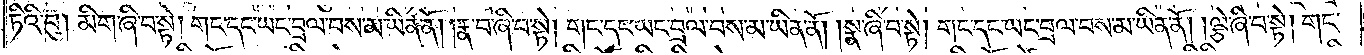ཏིའི་བུ། མིག་ཞི་བ་སྟེ། གང་དང་ཡང་བྲལ་བས་མ་ཡིན་ནོ། །རྣ་བ་ཞི་བ་སྟེ། གང་དང་ཡང་བྲལ་བས་མ་ཡིན་ནོ། །སྣ་ཞི་བ་སྟེ། གང་དང་ཡང་བྲལ་བས་མ་ཡིན་ནོ། །ལྕེ་ཞི་བ་སྟེ། གང་
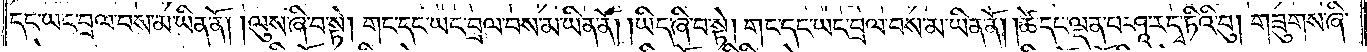དང་ཡང་བྲལ་བས་མ་ཡིན་ནོ། །ལུས་ཞི་བ་སྟེ། གང་དང་ཡང་བྲལ་བས་མ་ཡིན་ནོ། །ཡིད་ཞི་བ་སྟེ། གང་དང་ཡང་བྲལ་བས་མ་ཡིན་ནོ། །ཚེ་དང་ལྡན་པ་ཤཱ་ར་དྭ་ཏིའི་བུ། གཟུགས་ཞི་
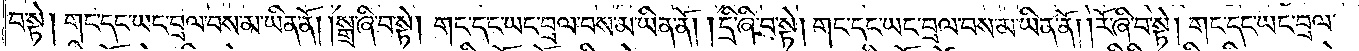བ་སྟེ། གང་དང་ཡང་བྲལ་བས་མ་ཡིན་ནོ། །སྒྲ་ཞི་བ་སྟེ། གང་དང་ཡང་བྲལ་བས་མ་ཡིན་ནོ། །དྲི་ཞི་བ་སྟེ། གང་དང་ཡང་བྲལ་བས་མ་ཡིན་ནོ། །རོ་ཞི་བ་སྟེ། གང་དང་ཡང་བྲལ་
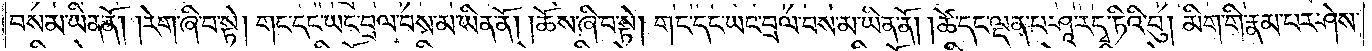བས་མ་ཡིན་ནོ། །རེག་ཞི་བ་སྟེ། གང་དང་ཡང་བྲལ་བས་མ་ཡིན་ནོ། །ཆོས་ཞི་བ་སྟེ། གང་དང་ཡང་བྲལ་བས་མ་ཡིན་ནོ། །ཚེ་དང་ལྡན་པ་ཤཱ་ར་དྭ་ཏིའི་བུ། མིག་གི་རྣམ་པར་ཤེས་
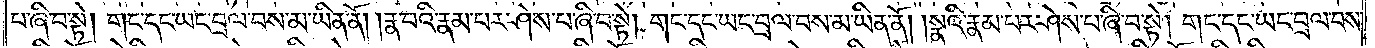པ་ཞི་བ་སྟེ། གང་དང་ཡང་བྲལ་བས་མ་ཡིན་ནོ། །རྣ་བའི་རྣམ་པར་ཤེས་པ་ཞི་བ་སྟེ། གང་དང་ཡང་བྲལ་བས་མ་ཡིན་ནོ། །སྣའི་རྣམ་པར་ཤེས་པ་ཞི་བ་སྟེ། གང་དང་ཡང་བྲལ་བས་
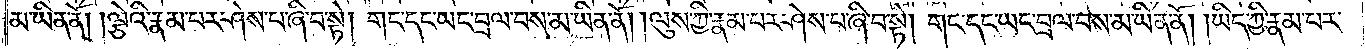མ་ཡིན་ནོ། །ལྕེའི་རྣམ་པར་ཤེས་པ་ཞི་བ་སྟེ། གང་དང་ཡང་བྲལ་བས་མ་ཡིན་ནོ། །ལུས་ཀྱི་རྣམ་པར་ཤེས་པ་ཞི་བ་སྟེ། གང་དང་ཡང་བྲལ་བས་མ་ཡིན་ནོ། །ཡིད་ཀྱི་རྣམ་པར་
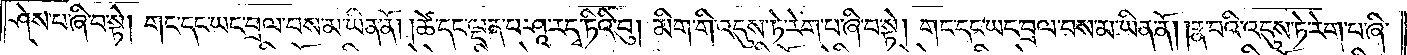ཤེས་པ་ཞི་བ་སྟེ། གང་དང་ཡང་བྲལ་བས་མ་ཡིན་ནོ། །ཚེ་དང་ལྡན་པ་ཤཱ་ར་དྭ་ཏིའི་བུ། མིག་གི་འདུས་ཏེ་རེག་པ་ཞི་བ་སྟེ། གང་དང་ཡང་བྲལ་བས་མ་ཡིན་ནོ། །རྣ་བའི་འདུས་ཏེ་རེག་པ་ཞི་
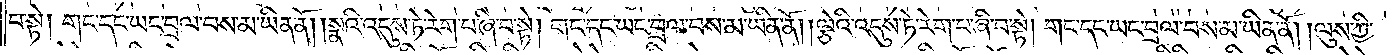བ་སྟེ། གང་དང་ཡང་བྲལ་བས་མ་ཡིན་ནོ། །སྣའི་འདུས་ཏེ་རེག་པ་ཞི་བ་སྟེ། གང་དང་ཡང་བྲལ་བས་མ་ཡིན་ནོ། །ལྕེའི་འདུས་ཏེ་རེག་པ་ཞི་བ་སྟེ། གང་དང་ཡང་བྲལ་བས་མ་ཡིན་ནོ། །ལུས་ཀྱི་
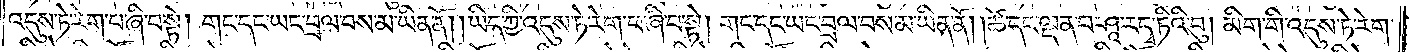འདུས་ཏེ་རེག་པ་བཞི་བ་སྟེ། གང་དང་ཡང་བྲལ་བས་མ་ཡིན་ནོ། །ཡིད་ཀྱི་འདུས་ཏེ་རེག་པ་ཞི་བ་སྟེ། གང་དང་ཡང་བྲལ་བས་མ་ཡིན་ནོ། །ཚེ་དང་ལྡན་པ་ཤཱ་ར་དྭ་ཏིའི་བུ། མིག་གི་འདུས་ཏེ་རེག་
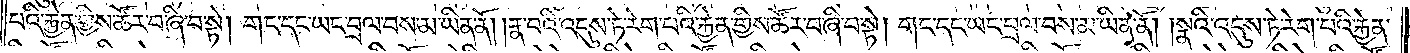པའི་རྐྱེན་གྱིས་ཚོར་བ་ཞི་བ་སྟེ། གང་དང་ཡང་བྲལ་བས་མ་ཡིན་ནོ། །རྣ་བའི་འདུས་ཏེ་རེག་པའི་རྐྱེན་གྱིས་ཚོར་བ་ཞི་བ་སྟེ། གང་དང་ཡང་བྲལ་བས་མ་ཡིན་ནོ། །སྣའི་འདུས་ཏེ་རེག་པའི་རྐྱེན་
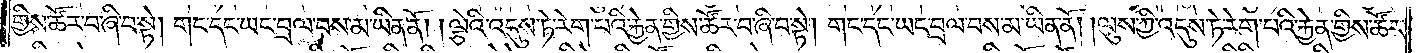གྱིས་ཚོར་བ་ཞི་བ་སྟེ། གང་དང་ཡང་བྲལ་བས་མ་ཡིན་ནོ། ། ལྕེའི་འདུས་ཏེ་རེག་པའི་རྐྱེན་གྱིས་ཚོར་བ་ཞི་བ་སྟེ། གང་དང་ཡང་བྲལ་བས་མ་ཡིན་ནོ། །ལུས་ཀྱི་འདུས་ཏེ་རེག་པའི་རྐྱེན་གྱིས་ཚོར་
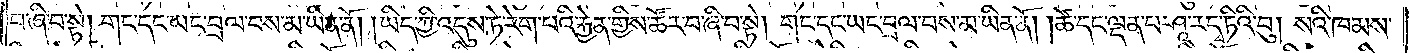བ་ཞི་བ་སྟེ། གང་དང་ཡང་བྲལ་བས་མ་ཡིན་ནོ། ཡིད་ཀྱི་འདུས་ཏེ་རེག་པའི་རྐྱེན་གྱིས་ཚོར་བ་ཞི་བ་སྟེ། གང་དང་ཡང་བྲལ་བས་མ་ཡིན་ནོ། །ཚེ་དང་ལྡན་པ་ཤཱ་ར་དྭ་ཏིའི་བུ། སའི་ཁམས་
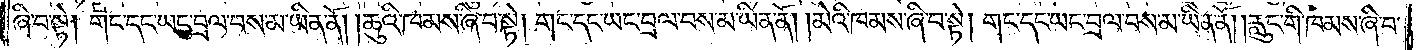ཞི་བ་སྟེ། གང་དང་ཡང་བྲལ་བས་མ་ཡིན་ནོ། །ཆུའི་ཁམས་ཞི་བ་སྟེ། གང་དང་ཡང་བྲལ་བས་མ་ཡིན་ནོ། །མེའི་ཁམས་ཞི་བ་སྟེ། གང་དང་ཡང་བྲལ་བས་མ་ཡིན་ནོ། །རླུང་གི་ཁམས་ཞི་བ་
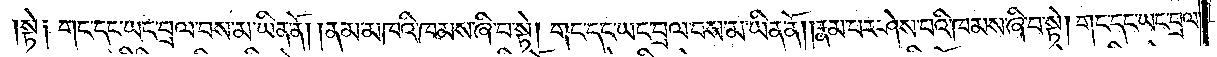སྟེ༑ གང་དང་ཡང་བྲལ་བས་མ་ཡིན་ནོ། །ནམ་མཁའ་ཁམས་ཞི་བ་སྟེ། གང་དང་ཡང་བྲལ་བས་མ་ཡིན་ནོ། །རྣམ་པར་ཤེས་པའི་ཁམས་ཞི་བ་སྟེ། གང་དང་ཡང་བྲལ་
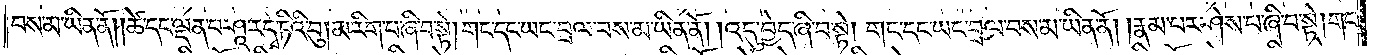བས་མ་ཡིན་ནོ། །ཚེ་དང་ལྡན་པ་ཤཱ་ར་དྭ་ཏིའི་བུ། མ་རིག་པ་ཞི་བ་སྟེ། གང་དང་ཡང་བྲལ་བས་མ་ཡིན་ནོ། །འདུ་བྱེད་ཞི་བ་སྟེ། གང་དང་ཡང་བྲལ་བས་མ་ཡིན་ནོ། །རྣམ་པར་ཤེས་པ་ཞི་བ་སྟེ། གང་
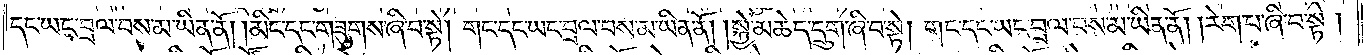དང་ཡང་བྲལ་བས་མ་ཡིན་ནོ། །མིང་དང་གཟུགས་ཞི་བ་སྟེ། གང་དང་ཡང་བྲལ་བས་མ་ཡིན་ནོ། །སྐྱེ་མཆེད་དྲུག་ཞི་བ་སྟེ། གང་དང་ཡང་བྲལ་བས་མ་ཡིན་ནོ། །རེག་པ་ཞི་བ་སྟེ།
